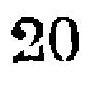20
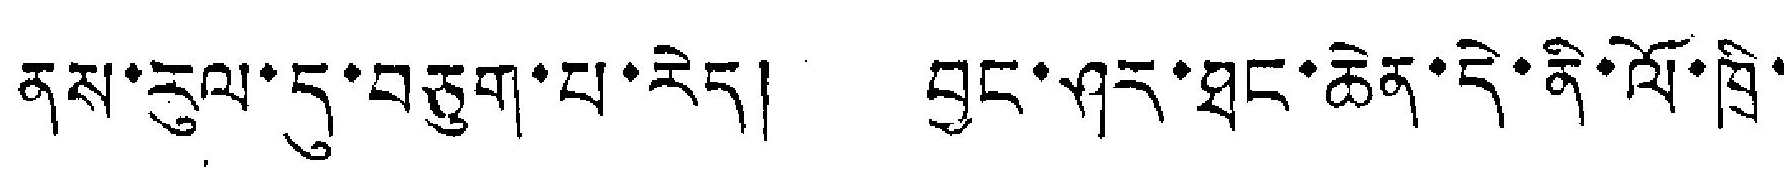ནས་རུལ་དུ་བཅུག་པ་རེད། བྱང་ཤར་ཐང་ཆེན་དེ་ནི་ལོ་ཁྲི་
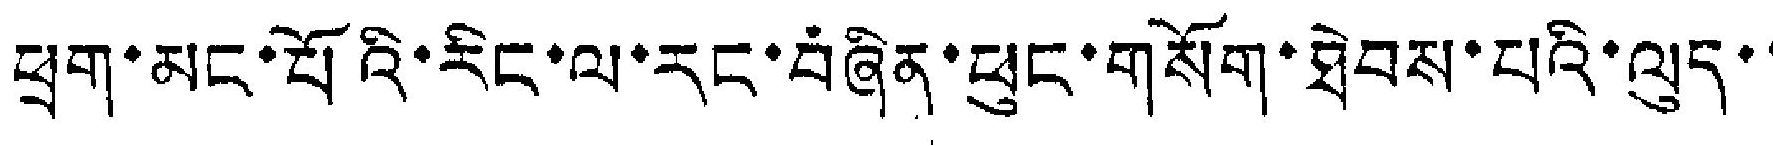ཕྲག་མང་པོའི་རིང་ལ་རང་བཞིན་ཕུང་གསོག་ཐེབས་པའི་ལུད་་
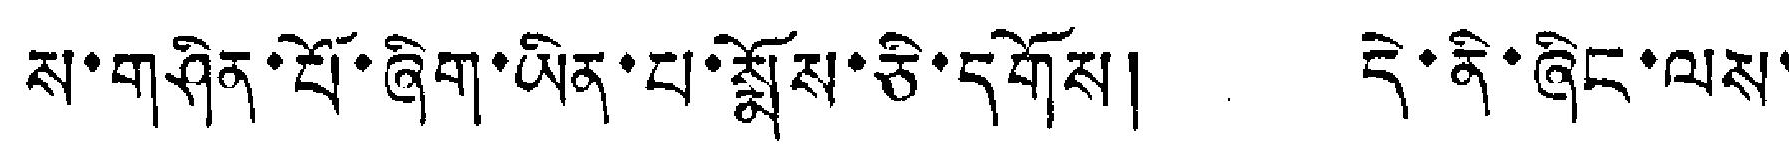ས་གཤིན་པོ་ཞིག་ཡིན་པ་སྨོས་ཅི་དགོས། དེ་ནི་ཞིང་ལས་
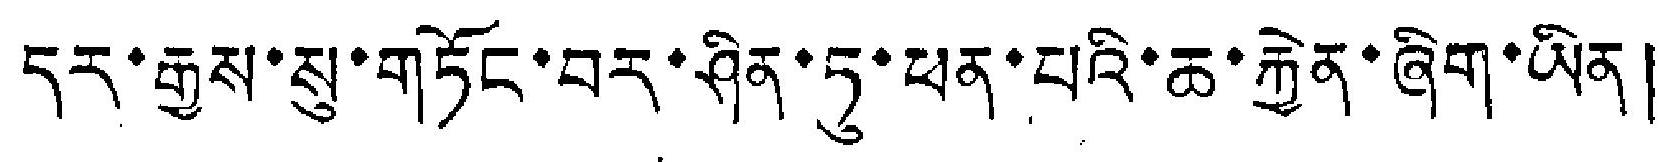དར་རྒྱས་སུ་གཏོང་བར་ཤིན་ཏུ་ཕན་པའི་ཆ་རྐྱེན་ཞིག་ཡིན།
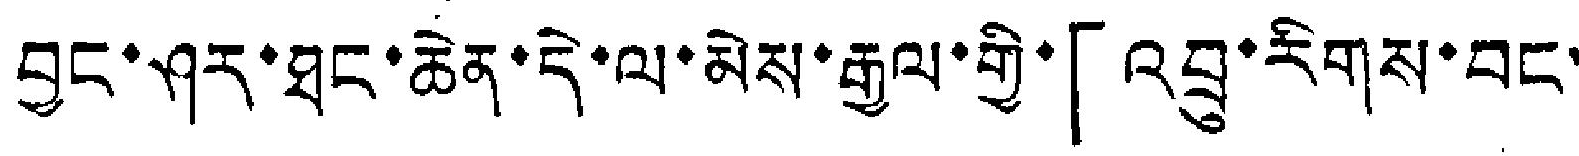བྱང་ཤར་ཐང་ཆེན་དེ་ལ་མེས་རྒྱལ་གྱི་「འབྲུ་རིགས་བང་
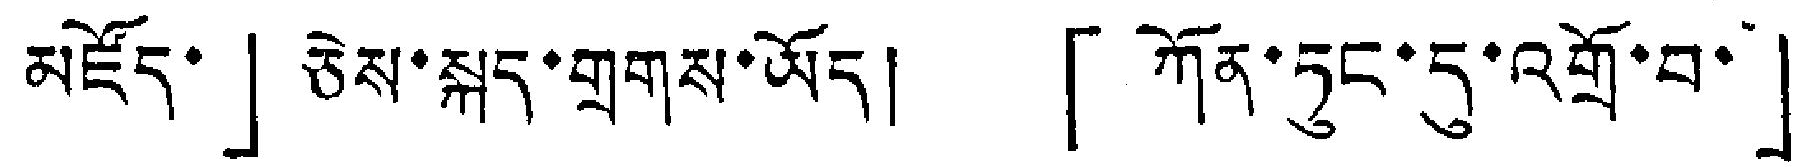མཛོད་」ཅེས་སྐད་གྲགས་ཡོད། 「ཀོན་ཏུང་དུ་འགྲོ་བ་」
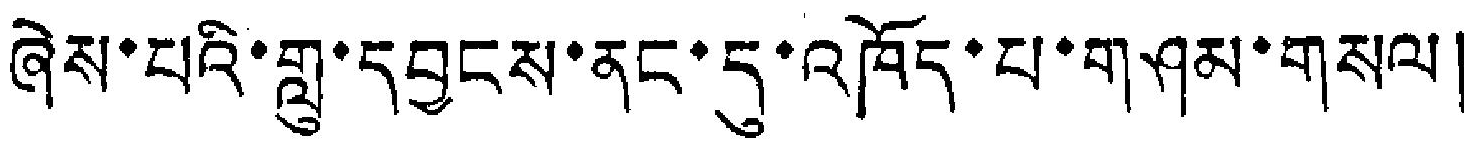ཞེས་པའི་གླུ་དབྱངས་ནང་དུ་འཁོད་པ་གཤམ་གསལ།
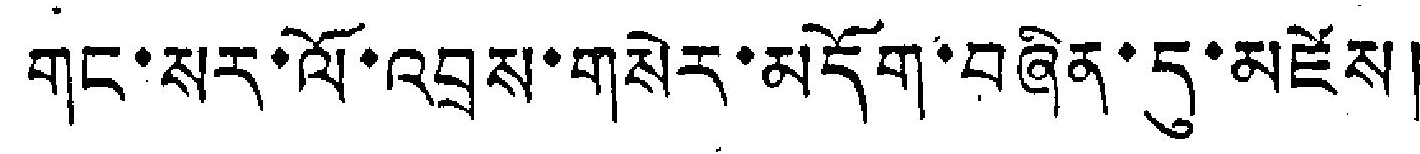གང་སར་ལོ་འབྲས་གསེར་མདོག་བཞིན་དུ་མཛེས།
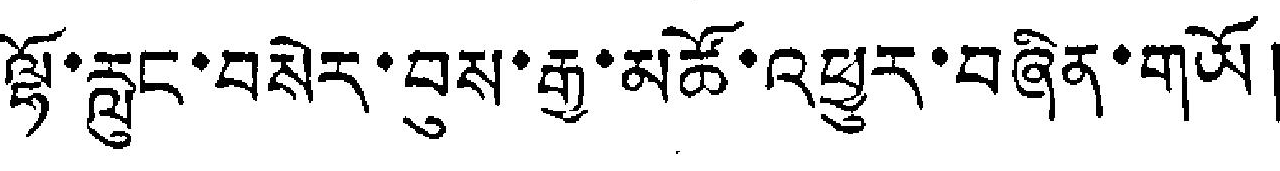ལྷོ་རླུང་བསེར་བུས་རྒྱ་མཚོ་འཕྱུར་བཞིན་གཡོ།
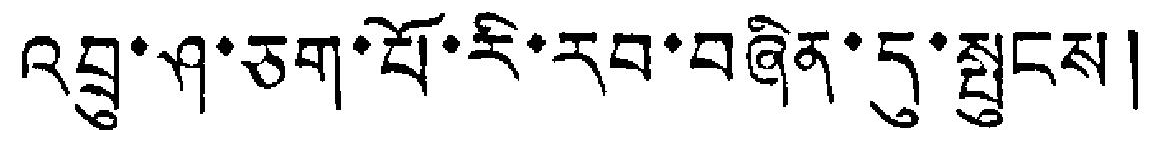འབྲུ་ཤ་ཅག་པོ་རི་རབ་བཞིན་དུ་སྤུངས།
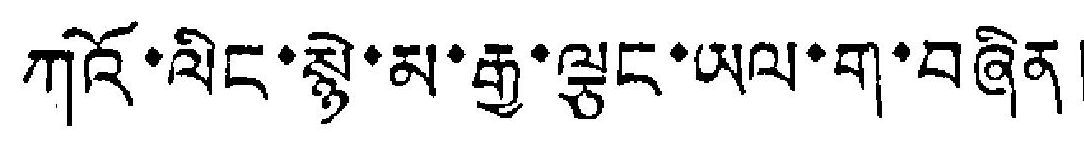ཀའོ་ལིང་སྙེ་མ་རྒྱུ་ལྕང་ཡལ་ག་བཞིན།
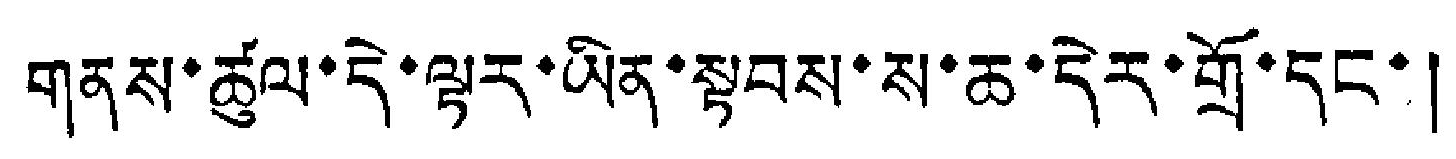གནས་ཚུལ་དེ་ལྟར་ཡིན་སྟབས་ས་ཆ་དེར་གྲོ་དང་
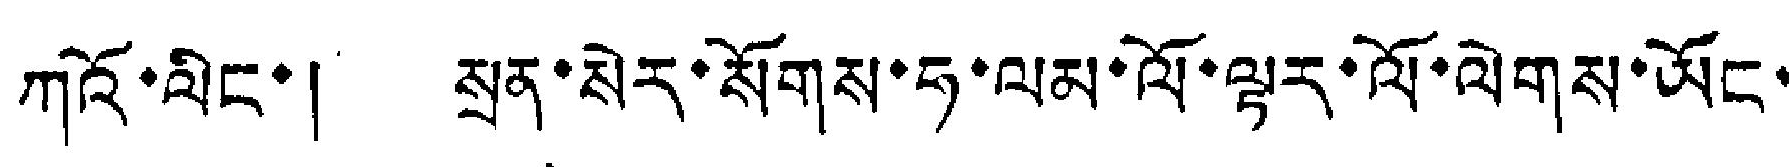ཀའོ་ལིང་། སྲན་སེར་སོགས་ཧ་ལམ་ལོ་ལྟར་ལོ་ལེགས་ཡོང་
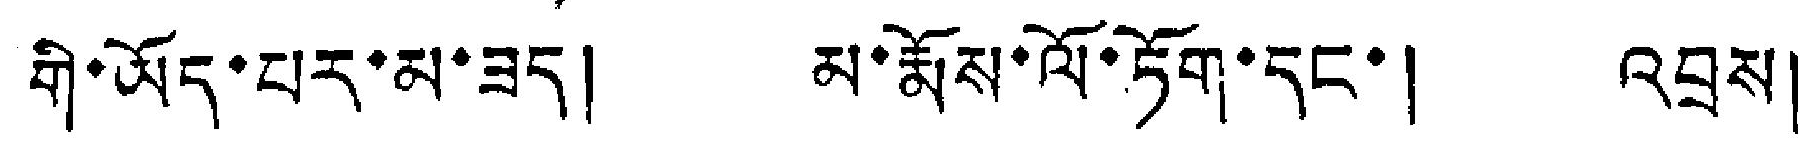གི་ཡོད་པར་མ་ཟད། མ་རྨོས་ལོ་ཏོག་དང་། འབྲས།
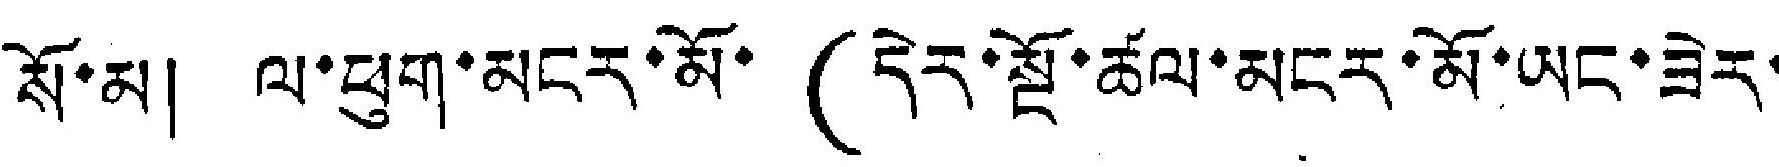སོ་མ། ལ་ཕུག་མངར་མོ་ (དེར་སྔོ་ཚལ་མངར་མོ་ཡང་ཟེར།
